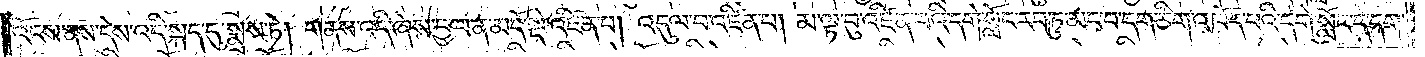འོངས་ནས་དེས་འདི་སྐད་དུ་སྨྲས་ཏེ། གནས་འདི་ཞེས་བྱ་བ་ན་མདོ་སྡེ་འཛིན་པ། འདུལ་བ་འཛིན་པ། མ་ལྟ་བུ་འཛིན་པའི་དགེ་སློང་རབ་ཏུ་མང་བ་དག་ཅིག་འཁོད་པའི་དགེ་སློང་དེ་དག་
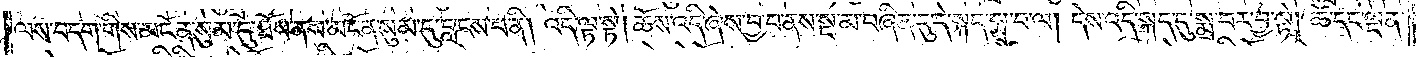ལས་བདག་གིས་མངོན་སུམ་དུ་ཐོས་ནས་མངོན་སུམ་དུ་བླངས་པ་ནི། འདི་ལྟ་སྟེ། ཆོས་འདི་ཞེས་བྱ་བ་ནས་སྔ་མ་བཞིན་དུ་དེ་སྐད་སྨྲ་བ་ལ། དེས་འདི་སྐད་དུ་སྨྲ་བར་བྱ་སྟེ། ཚེ་དང་ལྡན་
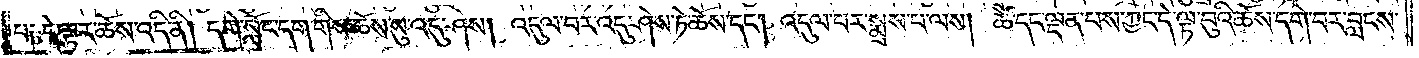པ༑ དེ་ལྟར་ཆོས་འདི་ནི། དགེ་སློང་དག་གིས་ཆོས་སུ་འདུ་ཤེས། འདུལ་བར་འདུ་ཤེས་ཏེ་ཆོས་དང༌། འདུལ་བར་སྨྲས་པ་ལས། ཚེ་དང་ལྡན་པས་ཀྱང་དེ་ལྟ་བུའི་ཆོས་དགེ་བར་བླངས་
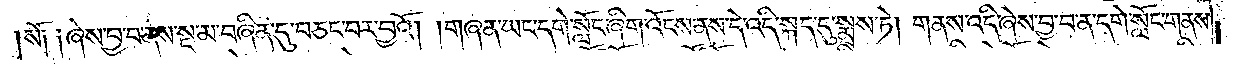སོ༑ ༑ཞེས་བྱ་བ་ནས་སྔ་མ་བཞིན་དུ་བཅང་བར་བྱའོ། །གཞན་ཡང་དགེ་སློང་ཞིག་འོངས་ནས་དེ་འདི་སྐད་དུ་སྨྲས་ཏེ། གནས་འདི་ཞེས་བྱ་བ་ན་དགེ་སློང་གནས་
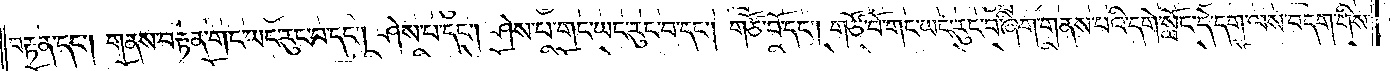བརྟན་དང༌། གནས་བརྟན་གང་ཡང་རུང་བ་དང༌། ཤེས་པ་དང༌། ཤེས་པ་གང་ཡང་རུང་བ་དང༌། གཙོ་བོ་དང༌། གཙོ་བོ་གང་ཡང་རུང་བ་ཞིག་གནས་པའི་དགེ་སློང་དེ་དག་ལས་བདག་གིས་
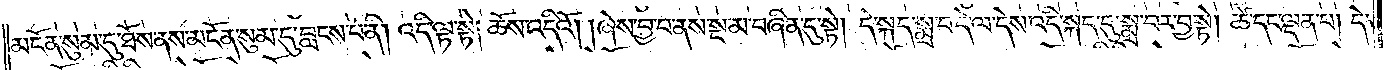མངོན་སུམ་དུ་ཐོས་ནས་མངོན་སུམ་དུ་བླངས་པ་ནི། འདི་ལྟ་སྟེ། ཆོས་འདིའོ། །ཞེས་བྱ་བ་ནས་སྔ་མ་བཞིན་དུ་སྟེ། དེ་སྐད་སྨྲ་བ་དེ་ལ་དེས་འདི་སྐད་དུ་སྨྲ་བར་བྱ་སྟེ། ཚེ་དང་ལྡན་པ། དེ་
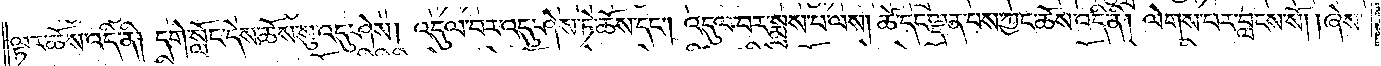ལྟར་ཆོས་འདི་ནི། དགེ་སློང་དེས་ཆོས་སུ་འདུ་ཤེས། འདུལ་བར་འདུ་ཤེས་ཏེ་ཆོས་དང༌། འདུལ་བར་སྨྲས་པ་ལས། ཚེ་དང་ལྡན་པས་ཀྱང་ཆོས་འདི་ནི། ལེགས་པར་བླངས་སོ། །ཞེས་
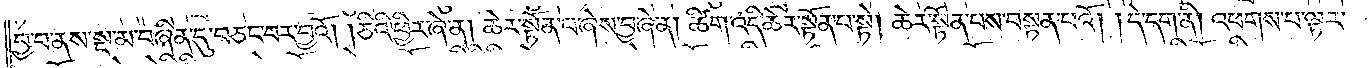བྱ་བ་ནས་སྔ་མ་བཞིན་དུ་བཅང་བར་བྱའོ། །ཅིའི་ཕྱིར་ཞེ་ན། ཆེར་སྟོན་པ་ཞེས་བྱ་ཞེ་ན། ཚིག་འདི་ཆེར་སྟོན་པ་སྟེ། ཆེར་སྟོན་པས་བསྟན་པའོ། །དེ་དག་ནི། འཕགས་པ་ལྟར་
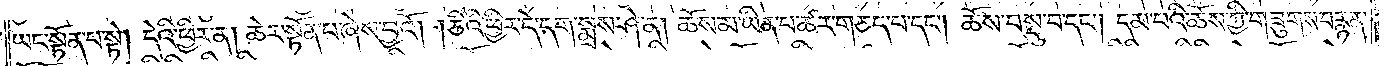ཡང་སྟོན་པ་སྟེ། དེའི་ཕྱིར་ན། ཆེར་སྟོན་པ་ཞེས་བྱའོ། །ཅིའི་ཕྱིར་དེ་དག་སྨྲས་ཤེ་ན། ཆོས་མ་ཡིན་པ་ཚར་གཅད་པ་དང༌། ཆོས་བསྡུ་བ་དང༌། དམ་པའི་ཆོས་ཀྱི་གཟུགས་བརྙན་
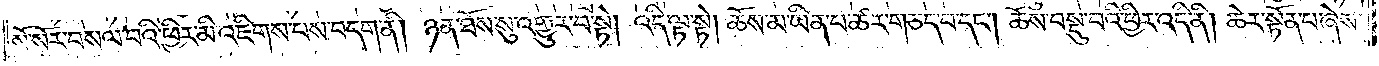སོ་སོར་བསལ་བའི་ཕྱིར་མི་འཇིགས་པས་བདག་ནི། ཉན་ཐོས་སུ་འགྱུར་བ་སྟེ། འདི་ལྟ་སྟེ། ཆོས་མ་ཡིན་པ་ཚར་གཅད་པ་དང༌། ཆོས་བསྡུ་བའི་ཕྱིར་འདི་ནི། ཆེར་སྟོན་པ་ཞེས་
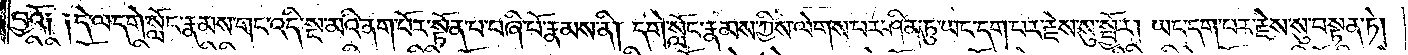བྱའོ༑ ༑དེ་ལ་དགེ་སློང་རྣམས་གང་འདི་སྔ་མའི་ནག་པོར་སྟོན་པ་བཞི་པོ་རྣམས་ནི། དགེ་སློང་རྣམས་ཀྱིས་ལེགས་པར་ཤིན་ཏུ་ཡང་དག་པར་རྗེས་སུ་སྦྱོར། ཡང་དག་པར་རྗེས་སུ་བསྟན་ཏེ།
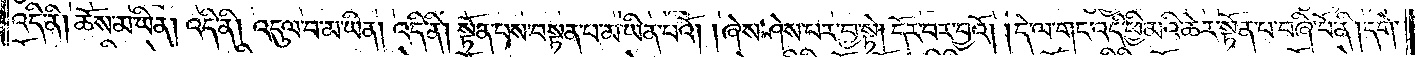འདི་ནི། ཆོས་མ་ཡིན། འདི་ནི། འདུལ་བ་མ་ཡིན། འདི་ནི། སྟོན་པས་བསྟན་པ་མ་ཡིན་པའོ། །ཞེས་ཤེས་པར་བྱ་སྟེ། དོར་བར་བྱའོ། །དེ་ལ་གང་འདི་ཕྱི་མའི་ཆེར་སྟོན་པ་བཞི་པོ་ནི། དགེ་
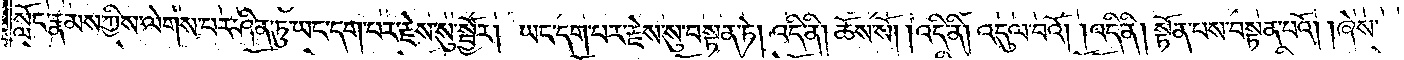སློང་རྣམས་ཀྱིས་ལེགས་པར་ཤིན་ཏུ་ཡང་དག་པར་རྗེས་སུ་སྦྱོར། ཡང་དག་པར་རྗེས་སུ་བསྟན་ཏེ། འདི་ནི། ཆོས་སོ། །འདི་ནི། འདུལ་བའོ། །འདི་ནི། སྟོན་པས་བསྟན་པའོ། །ཞེས་
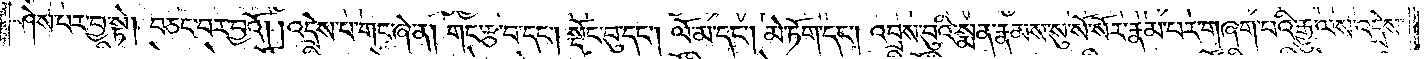ཤེས་པར་བྱ་སྟེ། བཅང་བར་བྱའོ། །འདྲེས་པ་གང་ཞེ་ན། གང་རྩ་བ་དང༌། སྡོང་བུ་དང༌། ལོ་མ་དང༌། མེ་ཏོག་དང༌། འབྲས་བུའི་སྨན་རྣམས་སུ་སོ་སོར་རྣམ་པར་གཞག་པའི་རྒྱུ་ལས་འདྲེས་
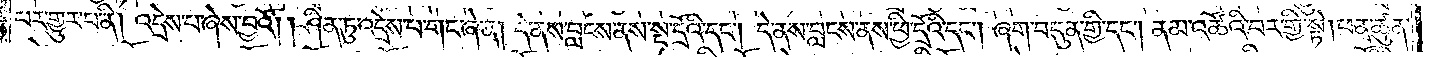པར་གྱུར་པ་ནི། འདྲེས་པ་ཞེས་བྱའོ། །ཤིན་ཏུ་འདྲེས་པ་གང་ཞེ་ན། དེ་ནས་བླངས་ནས་སྔ་དྲོའི་དང༌། དེ་ནས་བླངས་ནས་ཕྱི་དྲོའི་དང༌། ཞག་བདུན་གྱི་དང༌། ནམ་འཚོའི་བར་གྱི་སྟེ། ཕན་ཚུན་
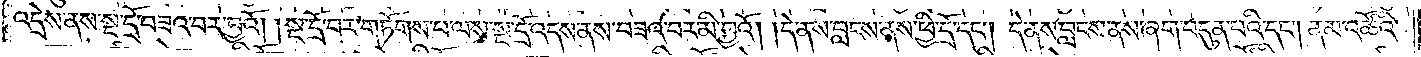འདྲེས་ནས་སྔ་དྲོ་བཟའ་བར་བྱའོ། །སྔ་དྲོ་བར་གཏོགས་པ་ལས་སྔ་དྲོ་འདས་ནས་བཟའ་བར་མི་བྱའོ། །དེ་ནས་བླངས་ནས་ཕྱི་དྲོ་དང༌། དེ་ནས་བླངས་ནས་ཞག་བདུན་པའི་དང༌། ནམ་འཚོའི་
